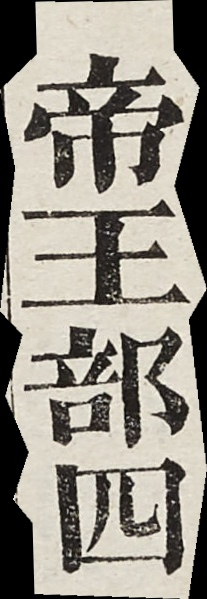帝王部四
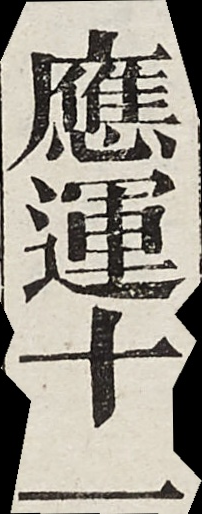應運十一
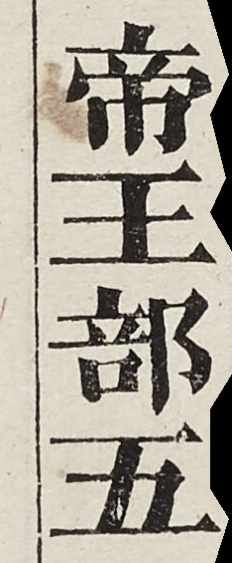帝王部五
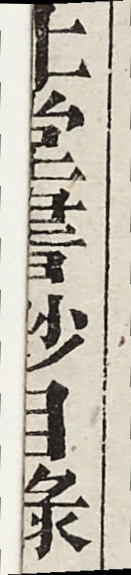北堂書鈔目錄
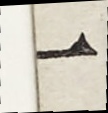一
